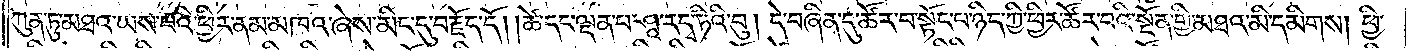ཀུན་ཏུ་མཐའ་ཡས་པའི་ཕྱིར་ནམ་མཁའ་ཞེས་མིང་དུ་བརྗོད་དོ། །ཚེ་དང་ལྡན་པ་ཤཱ་ར་དྭ་ཏིའི་བུ། དེ་བཞིན་དུ་ཚོར་བ་སྟོང་པ་ཉིད་ཀྱི་ཕྱིར་ཚོར་བའི་སྔོན་གྱི་མཐའ་མི་དམིགས། ཕྱི་
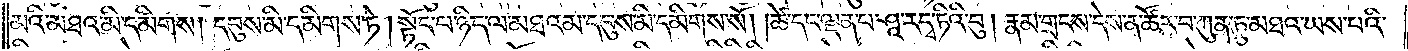མའི་མཐའ་མི་དམིགས། དབུས་མི་དམིགས་ཏེ། སྟོང་པ་ཉིད་ལ་མཐའམ་དབུས་མི་དམིགས་སོ། །ཚེ་དང་ལྡན་པ་ཤཱ་ར་དྭ་ཏིའི་བུ། རྣམ་གྲངས་དེས་ན་ཚོར་བ་ཀུན་ཏུ་མཐའ་ཡས་པའི་
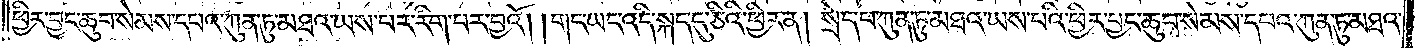ཕྱིར་བྱང་ཆུབ་སེམས་དཔའ་ཀུན་ཏུ་མཐའ་ཡས་པར་རིག་པར་བྱའོ། །གང་ཡང་འདི་སྐད་དུ་ཅིའི་ཕྱིར་ན། སྲེད་པ་ཀུན་ཏུ་མཐའ་ཡས་པའི་ཕྱིར་བྱང་ཆུབ་སེམས་དཔའ་ཀུན་ཏུ་མཐའ་
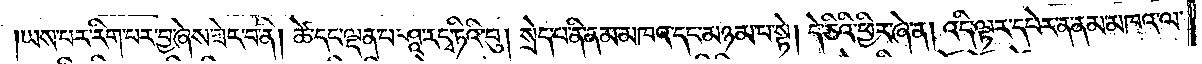ཡས་པར་རིག་པར་བྱ་ཞེས་ཟེར་བ་ནི། ཚེ་དང་ལྡན་པ་ཤཱ་ར་དྭ་ཏིའི་བུ། སྲེད་པ་ནི་ནམ་མཁའ་དང་མཉམ་པ་སྟེ། དེ་ཅིའི་ཕྱིར་ཞེ་ན། འདི་ལྟར་དཔེར་ན་ནམ་མཁའ་ལ་
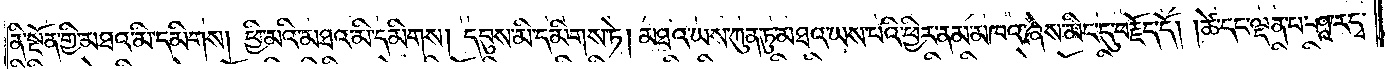ནི་སྔོན་གྱི་མཐའ་མི་དམིགས། ཕྱི་མའི་མཐའ་མི་དམིགས། དབུས་མི་དམིགས་ཏེ། མཐའ་ཡས་ཀུན་ཏུ་མཐའ་ཡས་པའི་ཕྱིར་ནམ་མཁའ་ཞེས་མིང་དུ་བརྗོད་དོ། །ཚེ་དང་ལྡན་པ་ཤཱ་ར་དྭ་
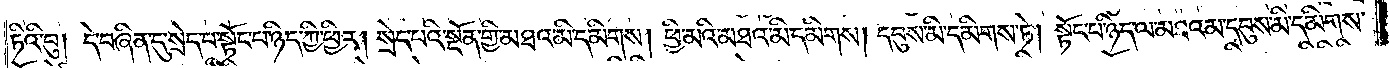ཏིའི་བུ། དེ་བཞིན་དུ་སྲེད་པ་སྟོང་པ་ཉིད་ཀྱི་ཕྱིར། སྲེད་པའི་སྔོན་གྱི་མཐའ་མི་དམིགས། ཕྱི་མའི་མཐའ་མི་དམིགས། དབུས་མི་དམིགས་ཏེ། སྟོང་པ་ཉིད་ལ་མཐའམ་དབུས་མི་དམིགས་
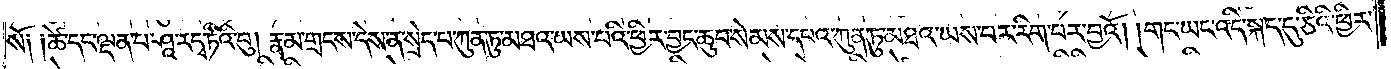སོ། །ཚེ་དང་ལྡན་པ་ཤཱ་ར་དྭ་ཏིའི་བུ། རྣམ་གྲངས་དེས་ན་སྲེད་པ་ཀུན་ཏུ་མཐའ་ཡས་པའི་ཕྱིར་བྱང་ཆུབ་སེམས་དཔའ་ཀུན་ཏུ་མཐའ་ཡས་པར་རིག་པར་བྱའོ། །གང་ཡང་འདི་སྐད་དུ་ཅིའི་ཕྱིར་
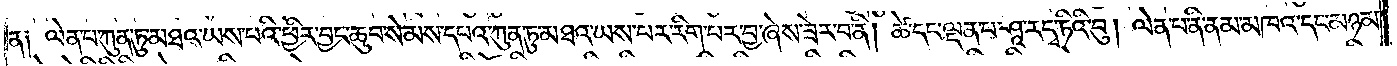ན། ལེན་པ་ཀུན་ཏུ་མཐའ་ཡས་པའི་ཕྱིར་བྱང་ཆུབ་སེམས་དཔའ་ཀུན་ཏུ་མཐའ་ཡས་པར་རིག་པར་བྱ་ཞེས་ཟེར་བ་ནི། ཚེ་དང་ལྡན་པ་ཤཱ་ར་དྭ་ཏིའི་བུ། ལེན་པ་ནི་ནམ་མཁའ་དང་མཉམ་
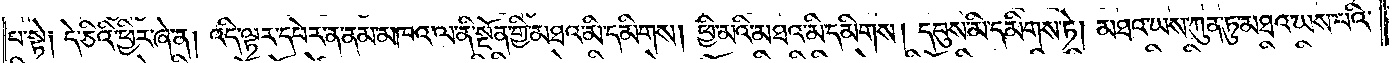པ་སྟེ། དེ་ཅིའི་ཕྱིར་ཞེ་ན། འདི་ལྟར་དཔེར་ན་ནམ་མཁའ་ལ་ནི་སྔོན་གྱི་མཐའ་མི་དམིགས། ཕྱི་མའི་མཐའ་མི་དམིགས། དབུས་མི་དམིགས་ཏེ། མཐའ་ཡས་ཀུན་ཏུ་མཐའ་ཡས་པའི་
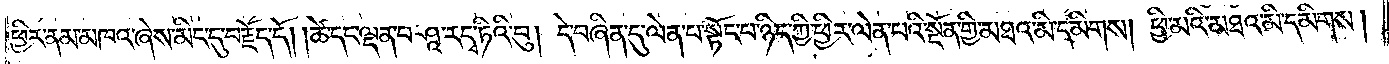ཕྱིར་ནམ་མཁའ་ཞེས་མིང་དུ་བརྗོད་དོ། །ཚེ་དང་ལྡན་པ་ཤཱ་ར་དྭ་ཏིའི་བུ། དེ་བཞིན་དུ་ལེན་པ་སྟོང་པ་ཉིད་ཀྱི་ཕྱིར་ལེན་པའི་སྔོན་གྱི་མཐའ་མི་དམིགས། ཕྱི་མའི་མཐའ་མི་དམིགས།
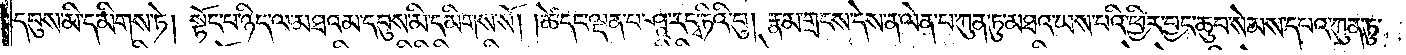དབུས་མི་དམིགས་ཏེ། སྟོང་པ་ཉིད་ལ་མཐའམ་དབུས་མི་དམིགས་སོ། །ཚེ་དང་ལྡན་པ་ཤཱ་ར་དྭ་ཏིའི་བུ། རྣམ་གྲངས་དེས་ན་ལེན་པ་ཀུན་ཏུ་མཐའ་ཡས་པའི་ཕྱིར་བྱང་ཆུབ་སེམས་དཔའ་ཀུན་ཏུ་
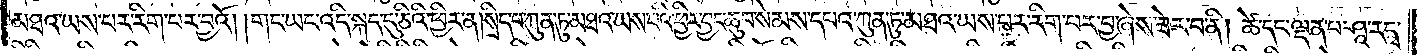མཐའ་ཡས་པར་རིག་པར་བྱའོ། །གང་ཡང་འདི་སྐད་དུ་ཅིའི་ཕྱིར་ན། སྲིད་པ་ཀུན་ཏུ་མཐའ་ཡས་པའི་ཕྱིར་བྱང་ཆུབ་སེམས་དཔའ་ཀུན་ཏུ་མཐའ་ཡས་པར་རིག་པར་བྱ་ཞེས་ཟེར་བ་ནི། ཚེ་དང་ལྡན་པ་ཤཱ་ར་དྭ་
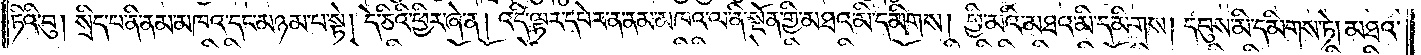ཏིའི་བུ། སྲིད་པ་ནི་ནམ་མཁའ་དང་མཉམ་པ་སྟེ། དེ་ཅིའི་ཕྱིར་ཞེ་ན། འདི་ལྟར་དཔེར་ན་ནམ་མཁའ་ལ་ནི་སྔོན་གྱི་མཐའ་མི་དམིགས། ཕྱི་མའི་མཐའ་མི་དམིགས། དབུས་མི་དམིགས་ཏེ། མཐའ་
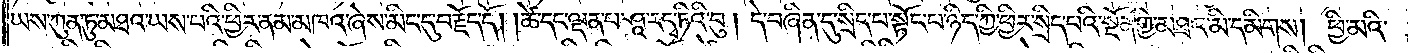ཡས་ཀུན་ཏུ་མཐའ་ཡས་པའི་ཕྱིར་ནམ་མཁའ་ཞེས་མིང་དུ་བརྗོད་དོ། །ཚེ་དང་ལྡན་པ་ཤཱ་ར་དྭ་ཏིའི་བུ། དེ་བཞིན་དུ་སྲིད་པ་སྟོང་པ་ཉིད་ཀྱི་ཕྱིར་སྲིད་པའི་སྔོན་གྱི་མཐའ་མི་དམིགས། ཕྱི་མའི་
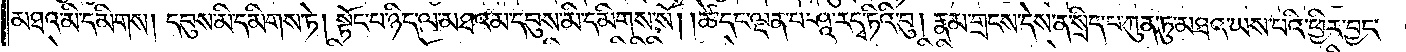མཐའ་མི་དམིགས། དབུས་མི་དམིགས་ཏེ། སྟོང་པ་ཉིད་ལ་མཐའམ་དབུས་མི་དམིགས་སོ། །ཚེ་དང་ལྡན་པ་ཤཱ་ར་དྭ་ཏིའི་བུ། རྣམ་གྲངས་དེས་ན་སྲིད་པ་ཀུན་ཏུ་མཐའ་ཡས་པའི་ཕྱིར་བྱང་
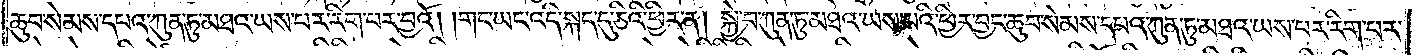ཆུབ་སེམས་དཔའ་ཀུན་ཏུ་མཐའ་ཡས་པར་རིག་པར་བྱའོ། །གང་ཡང་འདི་སྐད་དུ་ཅིའི་ཕྱིར་ན། སྐྱེ་བ་ཀུན་ཏུ་མཐའ་ཡས་པའི་ཕྱིར་བྱང་ཆུབ་སེམས་དཔའ་ཀུན་ཏུ་མཐའ་ཡས་པར་རིག་པར་
